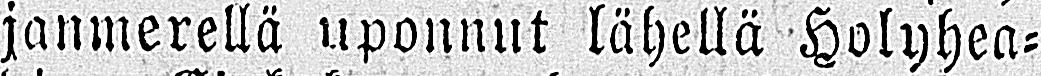janmerellä uponnut lähellä Holyhea-
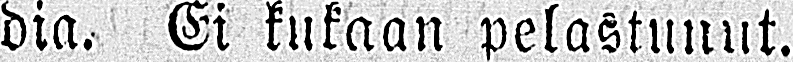dia. Ei kukaan pelastunut.
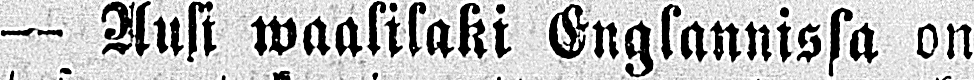— Uusi waalilaki Englannissa on
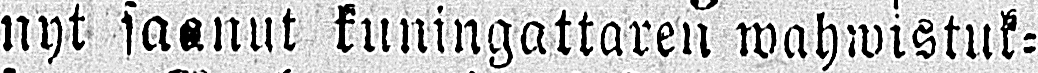nyt saanut kuningattaren wahwistuk-
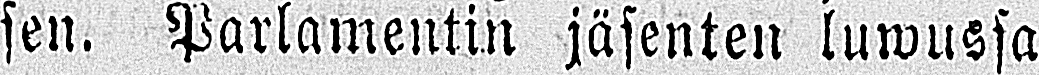sen. Parlamentin jäsenten luwussa
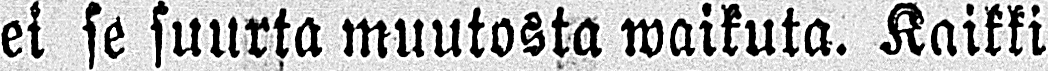ei se suurta muutosta waikuta. Kaikki
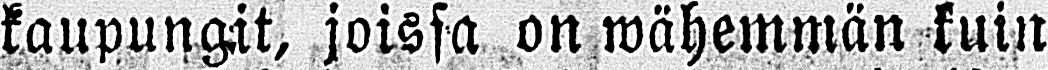kaupungit, joissa on wähemmän kuin
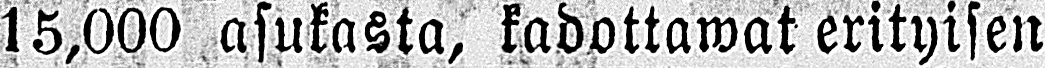15,000 asukasta, kadottawat erityisen
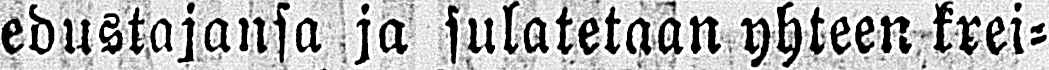edustajansa ja sulatetaan yhteen krei-
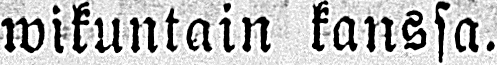wikuntain kanssa.
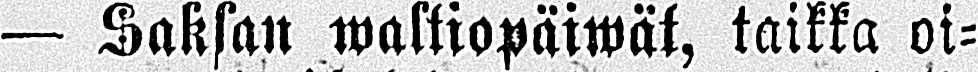— Saksan waltiopäwät, taikka oi-
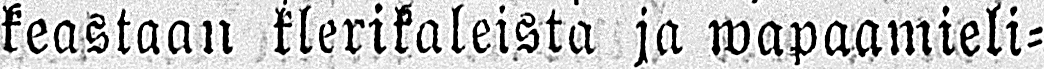keastaan klerikaleista ja wapaamieli-
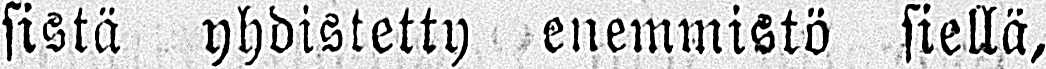sistä yhdistetty enemmistö siellä,
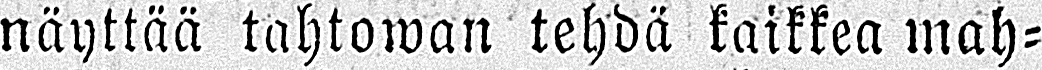näyttää tahtowan tehdä kaikkea mah-
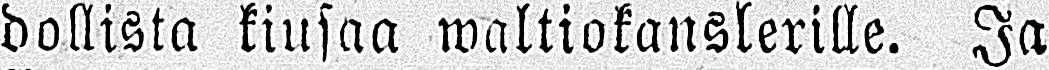dollista kiusaa waltiokanslerille. Ja
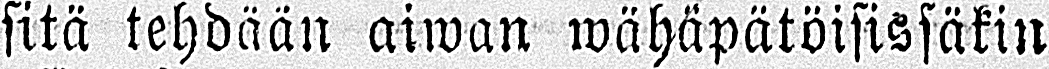sitä tehdään aiwan wähäpätöisissäkin
